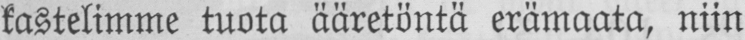kastelimme tuota ääretöntä erämaata, niin
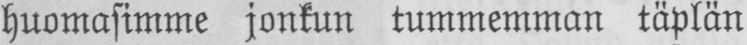huomasimme jonkun tummemman täplän
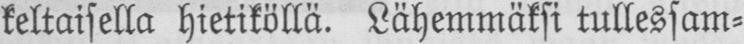keltaisella hietiköllä. Lähemmäksi tullessam-
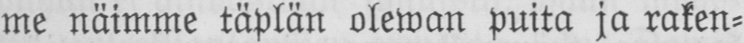me näimme täplän olewan puita ja raken-
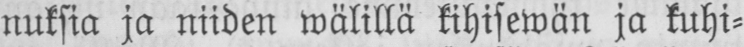nuksia ja niiden wälillä kihisewän ja kuhi-
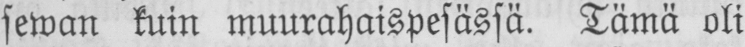sewan kuin muurahaispesässä. Tämä oli
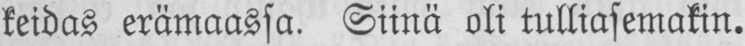keidas erämaassa. Siinä oli tulliasemakin.
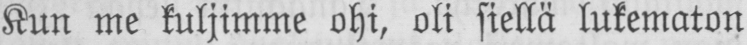Kun me kuljimme ohi, oli siellä lukematon
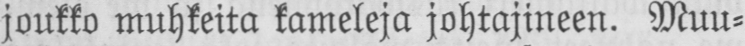joukko muhkeita kameleja johtajineen. Muu-
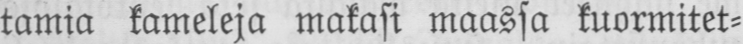tamia kameleja makasi maassa kuormitet-
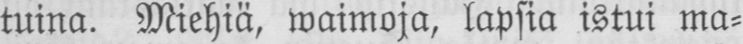tuina. Miehiä, waimoja, lapsia istui ma-
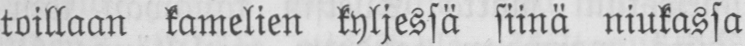toillaan kamelien kyljessä siinä niukassa
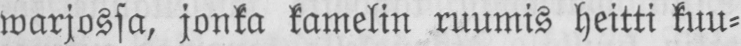warjossa, jonka kamelin ruumis heitti kuu-
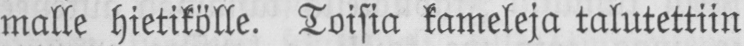malle hietikölle. Toisia kameleja talutettiin
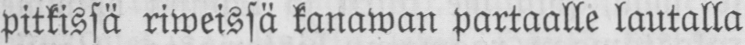pitkissä riweissä kanawan partaalle lautalla
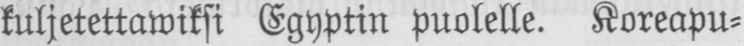kuljetettawiksi Egyptin puolelle. Koreapu-
